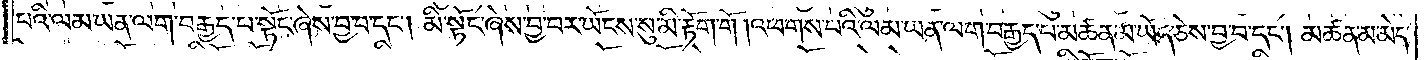པའི་ལམ་ཡན་ལག་བརྒྱད་པ་སྟོང་ཞེས་བྱ་བ་དང༌། མི་སྟོང་ཞེས་བྱ་བར་ཡོངས་སུ་མི་རྟོག་གོ །འཕགས་པའི་ལམ་ཡན་ལག་བརྒྱད་པ་མཚན་མ་ཡོད་ཅེས་བྱ་བ་དང༌། མཚན་མ་མེད་
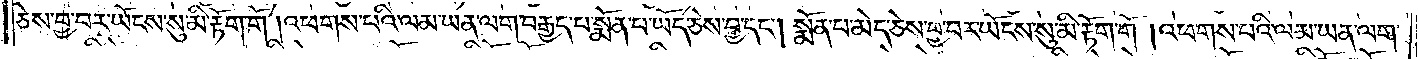ཅེས་བྱ་བར་ཡོངས་སུ་མི་རྟོག་གོ །འཕགས་པའི་ལམ་ཡན་ལག་བརྒྱད་པ་སྨོན་པ་ཡོད་ཅེས་བྱ་བ་དང༌། སྨོན་པ་མེད་ཅེས་བྱ་བར་ཡོངས་སུ་མི་རྟོག་གོ །འཕགས་པའི་ལམ་ཡན་ལག་
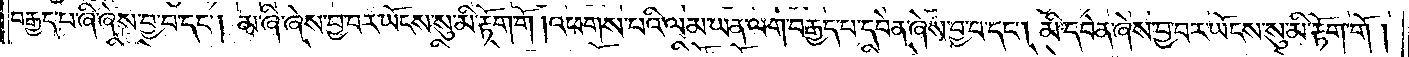བརྒྱད་པ་ཞི་ཞེས་བྱ་བ་དང༌། མ་ཞི་ཞེས་བྱ་བར་ཡོངས་སུ་མི་རྟོག་གོ །འཕགས་པའི་ལམ་ཡན་ལག་བརྒྱད་པ་དབེན་ཞེས་བྱ་བ་དང༌། མི་དབེན་ཞེས་བྱ་བར་ཡོངས་སུ་མི་རྟོག་གོ །
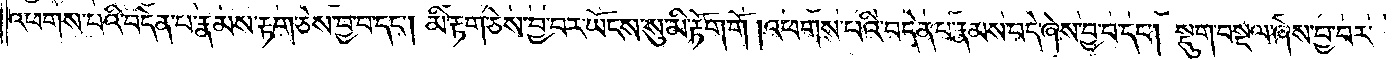འཕགས་པའི་བདེན་པ་རྣམས་རྟག་ཅེས་བྱ་བ་དང༌། མི་རྟག་ཅེས་བྱ་བར་ཡོངས་སུ་མི་རྟོག་གོ །འཕགས་པའི་བདེན་པ་རྣམས་བདེ་ཞེས་བྱ་བ་དང༌། སྡུག་བསྔལ་ཞེས་བྱ་བར་
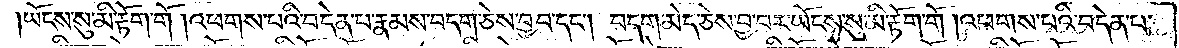ཡོངས་སུ་མི་རྟོག་གོ །འཕགས་པའི་བདེན་པ་རྣམས་བདག་ཅེས་བྱ་བ་དང༌། བདག་མེད་ཅེས་བྱ་བར་ཡོངས་སུ་མི་རྟོག་གོ །འཕགས་པའི་བདེན་པ་
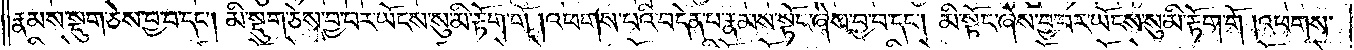རྣམས་སྡུག་ཅེས་བྱ་བ་དང༌། མི་སྡུག་ཅེས་བྱ་བར་ཡོངས་སུ་མི་རྟོག་གོ །འཕགས་པའི་བདེན་པ་རྣམས་སྟོང་ཞེས་བྱ་བ་དང༌། མི་སྟོང་ཞེས་བྱ་བར་ཡོངས་སུ་མི་རྟོག་གོ །འཕགས་
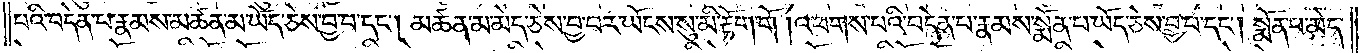པའི་བདེན་པ་རྣམས་མཚན་མ་ཡོད་ཅེས་བྱ་བ་དང༌། མཚན་མ་མེད་ཅེས་བྱ་བར་ཡོངས་སུ་མི་རྟོག་གོ །འཕགས་པའི་བདེན་པ་རྣམས་སྨོན་པ་ཡོད་ཅེས་བྱ་བ་དང༌། སྨོན་པ་མེད་
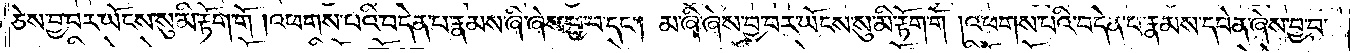ཅེས་བྱ་བར་ཡོངས་སུ་མི་རྟོག་གོ །འཕགས་པའི་བདེན་པ་རྣམས་ཞི་ཞེས་བྱ་བ་དང༌། མ་ཞི་ཞེས་བྱ་བར་ཡོངས་སུ་མི་རྟོག་གོ །འཕགས་པའི་བདེན་པ་རྣམས་དབེན་ཞེས་བྱ་བ་
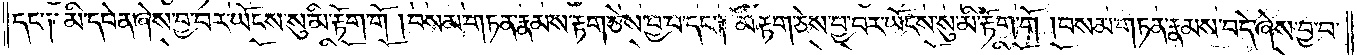དང༌། མི་དབེན་ཞེས་བྱ་བར་ཡོངས་སུ་མི་རྟོག་གོ །བསམ་གཏན་རྣམས་རྟག་ཅེས་བྱ་བ་དང༌། མི་རྟག་ཅེས་བྱ་བར་ཡོངས་སུ་མི་རྟོག་གོ །བསམ་གཏན་རྣམས་བདེ་ཞེས་བྱ་བ་
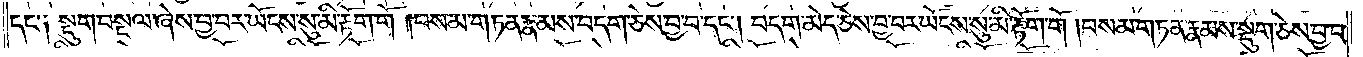དང༌། སྡུག་བསྔལ་ཞེས་བྱ་བར་ཡོངས་སུ་མི་རྟོག་གོ །བསམ་གཏན་རྣམས་བདག་ཅེས་བྱ་བ་དང༌། བདག་མེད་ཅེས་བྱ་བར་ཡོངས་སུ་མི་རྟོག་གོ །བསམ་གཏན་རྣམས་སྡུག་ཅེས་བྱ་བ་
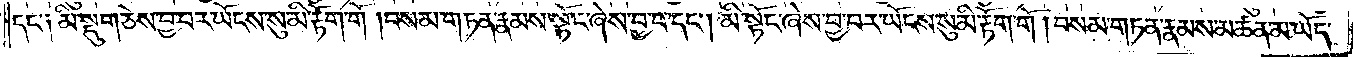དང༌། མི་སྡུག་ཅེས་བྱ་བར་ཡོངས་སུ་མི་རྟོག་གོ །བསམ་གཏན་རྣམས་སྟོང་ཞེས་བྱ་བ་དང༌། མི་སྟོང་ཞེས་བྱ་བར་ཡོངས་སུ་མི་རྟོག་གོ །བསམ་གཏན་རྣམས་མཚན་མ་ཡོད་
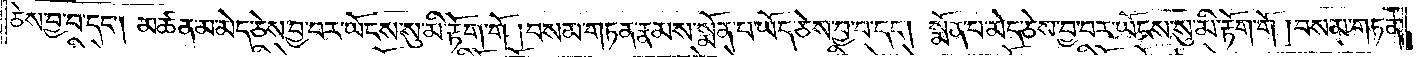ཅེས་བྱ་བ་དང༌། མཚན་མ་མེད་ཅེས་བྱ་བར་ཡོངས་སུ་མི་རྟོག་གོ །བསམ་གཏན་རྣམས་སྨོན་པ་ཡོད་ཅེས་བྱ་བ་དང༌། སྨོན་པ་མེད་ཅེས་བྱ་བར་ཡོངས་སུ་མི་རྟོག་གོ །བསམ་གཏན་
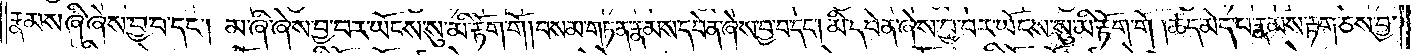རྣམས་ཞི་ཞེས་བྱ་བ་དང༌། མ་ཞི་ཞེས་བྱ་བར་ཡོངས་སུ་མི་རྟོག་གོ །བསམ་གཏན་རྣམས་དབེན་ཞེས་བྱ་བ་དང༌། མི་དབེན་ཞེས་བྱ་བར་ཡོངས་སུ་མི་རྟོག་གོ །ཚད་མེད་པ་རྣམས་རྟག་ཅེས་བྱ་
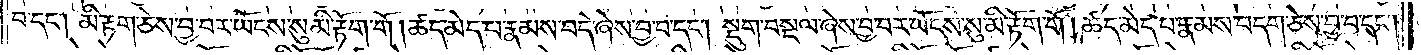བ་དང༌། མི་རྟག་ཅེས་བྱ་བར་ཡོངས་སུ་མི་རྟོག་གོ །ཚད་མེད་པ་རྣམས་བདེ་ཞེས་བྱ་བ་དང༌། སྡུག་བསྔལ་ཞེས་བྱ་བར་ཡོངས་སུ་མི་རྟོག་གོ །ཚད་མེད་པ་རྣམས་བདག་ཅེས་བྱ་བ་དང༌།
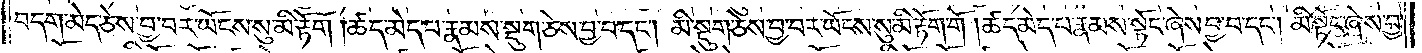བདག་མེད་ཅེས་བྱ་བར་ཡོངས་སུ་མི་རྟོག་གོ །ཚད་མེད་པ་རྣམས་སྡུག་ཅེས་བྱ་བ་དང༌། མི་སྡུག་ཅེས་བྱ་བར་ཡོངས་སུ་མི་རྟོག་གོ །ཚད་མེད་པ་རྣམས་སྟོང་ཞེས་བྱ་བ་དང༌། མི་སྟོང་ཞེས་བྱ་
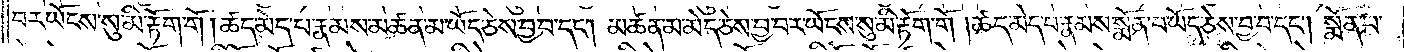བར་ཡོངས་སུ་མི་རྟོག་གོ །ཚད་མེད་པ་རྣམས་མཚན་མ་ཡོད་ཅེས་བྱ་བ་དང༌། མཚན་མ་མེད་ཅེས་བྱ་བར་ཡོངས་སུ་མི་རྟོག་གོ །ཚད་མེད་པ་རྣམས་སྨོན་པ་ཡོད་ཅེས་བྱ་བ་དང༌། སྨོན་པ་
